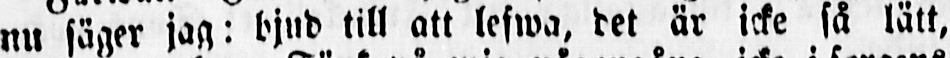nu säger jag: bjud till att lefwa, det är icke så lätt,
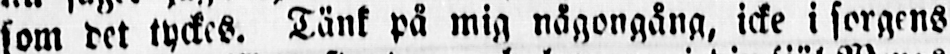som det tyckes. Tänk på mig någongång, icke i sorgens
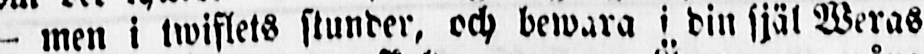- men i twiflets stunder, och bewara i din själ Weras
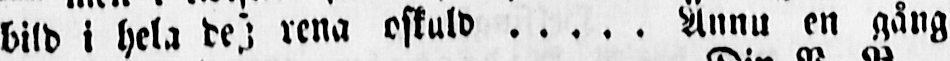bild i hela desz rena oskuld ..... Ännu en gång
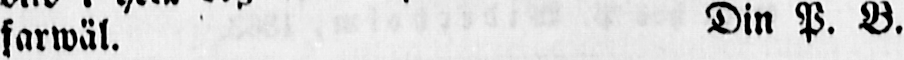farwäl. Din P. B.
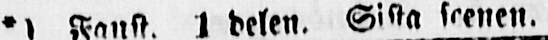*) Faust. 1 delen. Sista scenen.
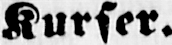Kurser.
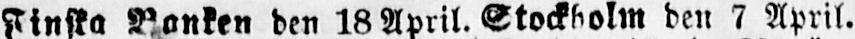Finska Banken den 18 April. Stockholm den 7 April.
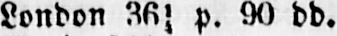London 36¼ p. 90 dd.
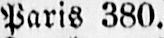Paris 380.
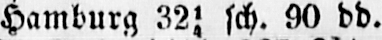Hamburg 32¼ sch. 90 dd.
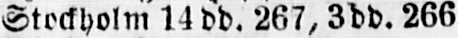Stockholm 14 dd. 267, 3dd. 266.
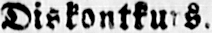Diskontkurs.
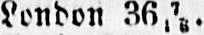London 36 7/16.
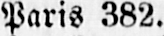Paris 382.
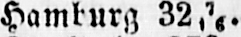Hamburg 32 7/16.
